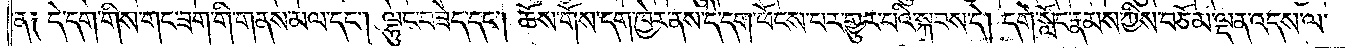ན༑ དེ་དག་གིས་གང་ཟག་གི་གནས་མལ་དང༌། ལྷུང་བཟེད་དང༌། ཆོས་གོས་དག་ཁྱེར་ནས་དེ་དག་ཕོངས་པར་གྱུར་པའི་སྐབས་དེ། དགེ་སློང་རྣམས་ཀྱིས་བཅོམ་ལྡན་འདས་ལ་
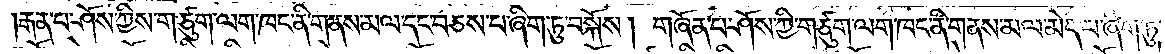རྒན་པ་ཤོས་ཀྱིས་གཙུག་ལག་ཁང་ནི་གནས་མལ་དང་བཅས་པ་ཞིག་ཏུ་བསྐོས། གཞོན་པ་ཤོས་ཀྱི་གཙུག་ལག་ཁང་ནི་གནས་མལ་མེད་པ་ཞིག་ཏུ་
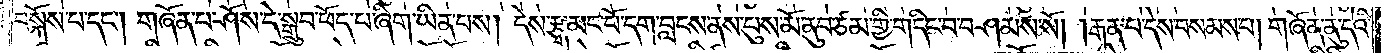བསྐོས་པ་དང༌། གཞོན་པ་ཤོས་དེ་སྒྲུབ་ཕོད་པ་ཞིག་ཡིན་པས། དེས་རྩྭ་མང་པོ་དག་བླངས་ནས་པུས་མོ་ནུབ་ཙམ་གྱི་གདིང་བ་བཤམས་སོ། །རྒན་པ་དེས་བསམས་པ། གཞོན་ནུ་དེའི་
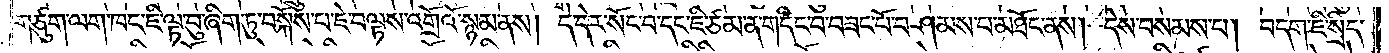གཙུག་ལག་ཁང་ཇི་ལྟ་བུ་ཞིག་ཏུ་བསྐོས་པ་ཇེ་བལྟས་འགྲོའོ་སྙམ་ནས། དེ་དེར་སོང་བ་དང་ཇི་ཙམ་ན་གདིང་བ་བཟང་པོ་བཤམས་པ་མཐོང་ནས། དེས་བསམས་པ། བདག་ཇི་སྲིད་
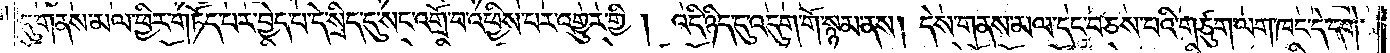དུ་གནས་མལ་ཕྱིར་གཏོད་པར་བྱེད་པ་དེ་སྲིད་དུ་སང་འགྲོ་བ་འཕྱིས་པར་འགྱུར་གྱི། འདི་ཉིད་དུ་འདུག་གོ་སྙམ་ནས། དེས་གནས་མལ་དང་བཅས་པའི་གཙུག་ལག་ཁང་དེ་དགེ་
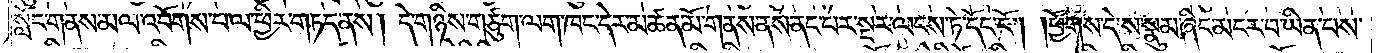སློང་གནས་མལ་འབོགས་པ་ལ་ཕྱིར་གཏད་ནས། དེ་གཉིས་གཙུག་ལག་ཁང་དེར་མཚན་མོ་གནས་ནས་ནང་པར་སྔར་ལངས་ཏེ་དོང་ངོ༌། །ཕྱོགས་དེ་ས་སྣུམ་ཞིང་མངར་བ་ཡིན་པས་
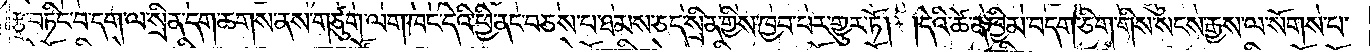རྩྭ་བཏིང་བ་དག་ལ་སྲིན་དག་ཆགས་ནས་གཙུག་ལག་ཁང་དེའི་ཕྱི་ནང་བཅས་པ་ཐམས་ཅད་སྲིན་གྱིས་ཁྱབ་པར་གྱུར་ཏོ། །དེའི་ཚེ་ན་ཁྱིམ་བདག་ཅིག་གིས་སངས་རྒྱས་ལ་སོགས་པ་
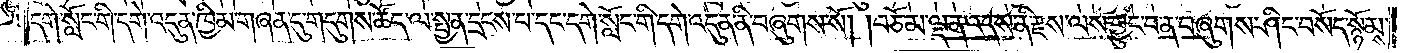དགེ་སློང་གི་དགེ་འདུན་ཁྱིམ་གཞན་དུ་གདུགས་ཚོད་ལ་སྤྱན་དྲངས་པ་དང་དགེ་སློང་གི་དགེ་འདུན་ནི་བཞུགས་སོ། །བཅོམ་ལྡན་འདས་ནི་རྫས་ལས་བྱུང་བ་ན་བཞུགས་ཤིང་བསོད་སྙོམས་
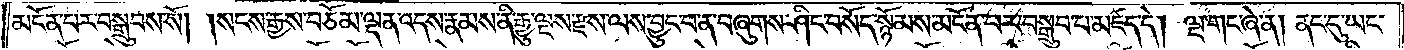མངོན་པར་བསྒྲུབས་སོ། །སངས་རྒྱས་བཅོམ་ལྡན་འདས་རྣམས་ནི་རྒྱུ་ལྔས་རྫས་ལས་བྱུང་བ་ན་བཞུགས་ཤིང་བསོད་སྙོམས་མངོན་པར་བསྒྲུབ་པ་མཛད་དེ། ལྔ་གང་ཞེ་ན། ནང་དུ་ཡང་
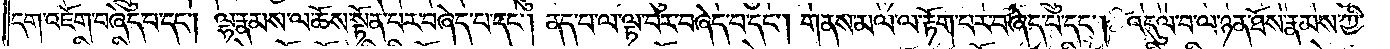དག་འཇོག་བཞེད་པ་དང༌། ལྷ་རྣམས་ལ་ཆོས་སྟོན་པར་བཞེད་པ་དང༌། ནད་པ་ལ་ལྟ་བར་བཞེད་པ་དང༌། གནས་མལ་ལ་རྟོག་པར་བཞེད་པ་དང༌། འདུལ་བ་ལ་ཉན་ཐོས་རྣམས་ཀྱི་
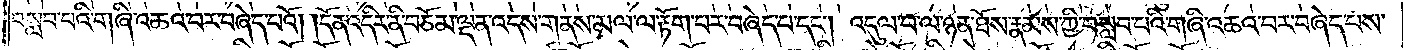བསླབ་པའི་གཞི་འཆའ་བར་བཞེད་པའོ། །དོན་འདིར་ནི་བཅོམ་ལྡན་འདས་གནས་མལ་ལ་རྟོག་པར་བཞེད་པ་དང༌། འདུལ་བ་ལ་ཉན་ཐོས་རྣམས་ཀྱི་བསླབ་པའི་གཞི་འཆའ་བར་བཞེད་པས་
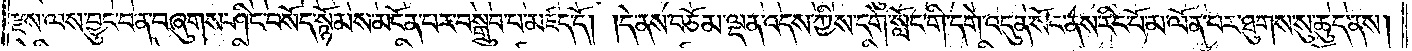རྫས་ལས་བྱུང་བ་ན་བཞུགས་ཤིང་བསོད་སྙོམས་མངོན་པར་བསྒྲུབ་པ་མཛད་དོ། །དེ་ནས་བཅོམ་ལྡན་འདས་ཀྱིས་དགེ་སློང་གི་དགེ་འདུན་སོང་ནས་རིང་པོ་མ་ལོན་པར་ཐུགས་སུ་ཆུད་ནས།
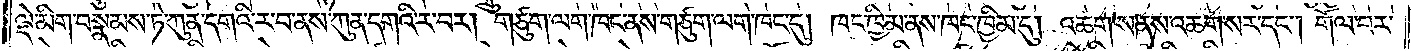ལྡེ་མིག་བསྣམས་ཏེ་ཀུན་དགའི་ར་བ་ནས་ཀུན་དགའི་ར་བར། གཙུག་ལག་ཁང་ནས་གཙུག་ལག་ཁང་དུ། ཁང་ཁྱིམ་ནས་ཁང་ཁྱིམ་དུ། འཆག་ས་ནས་འཆག་སར་དང༌། གོལ་བར་
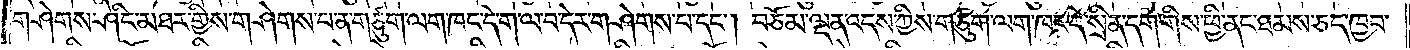གཤེགས་ཤིང་མཐར་གྱིས་གཤེགས་པ་ན་གཙུག་ལག་ཁང་དེ་ག་ལ་བ་དེར་གཤེགས་པ་དང༌། བཅོམ་ལྡན་འདས་ཀྱིས་གཙུག་ལག་ཁང་དེ་སྲིན་དག་གིས་ཕྱི་ནང་ཐམས་ཅད་ཁྱབ་
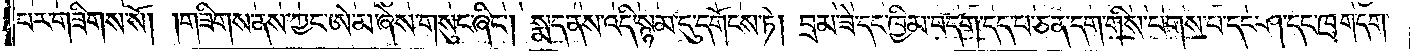པར་གཟིགས་སོ། །གཟིགས་ནས་ཀྱང་ཨེ་མ་ཞེས་གསུང་ཞིང༌། སྨད་ནས་འདི་སྙམ་དུ་དགོངས་ཏེ། བྲམ་ཟེ་དང་ཁྱིམ་བདག་དད་པ་ཅན་དག་གིས་པགས་པ་དང་ཤ་དང་ཁྲག་དག་
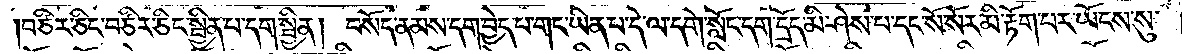བཙིར་ཅིང་བཙིར་ཅིང་སྦྱིན་པ་དག་སྦྱིན། བསོད་ནམས་དག་བྱེད་པ་གང་ཡིན་པ་དེ་ལ་དགེ་སློང་དག་དྲོད་མི་ཤེས་པ་དང་སོ་སོར་མི་རྟོག་པར་ཡོངས་སུ་
